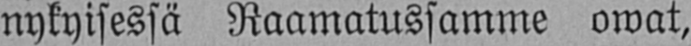nykyisessä Raamatussamme owat,
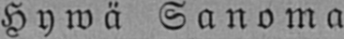Hywä Sanoma.
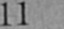11
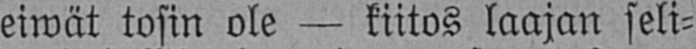eiwät tosin ole — kiitos laajan seli-
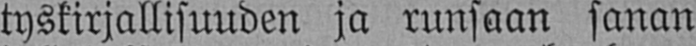tyskirjallisuuden ja runsaan sanan
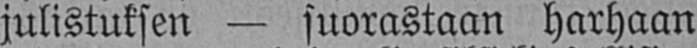julistuksen — suorastaan harhaan
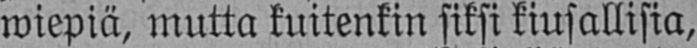wiepiä, mutta kuitenkin siksi kiusallisia,
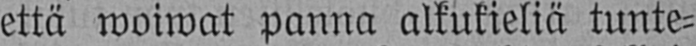että woiwat panna alkukieliä tunte-
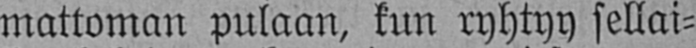mattoman pulaan, kun ryhtyy sellai-
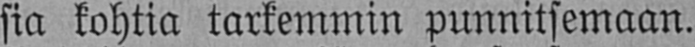sia kohtia tarkemmin punnitsemaan.
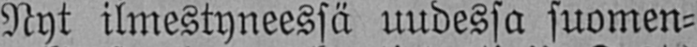Nyt ilmestyneessä uudessa suomen-
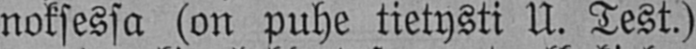noksessa (on puhe tietysti U. Test.)
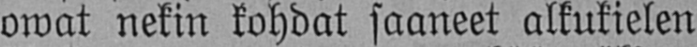owat nekin kohdat saaneet alkukielen
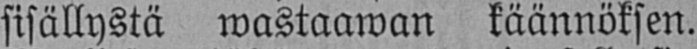sisällystä wastaawan käännöksen.
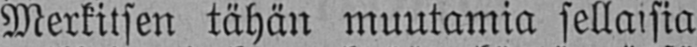Merkitsen tähän muutamia sellaisia
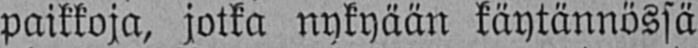paikkoja, jotka nykyään käytännössä
